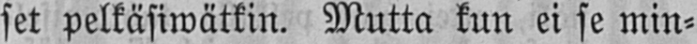set pelkäsiwätkin. Mutta kun ei se min-
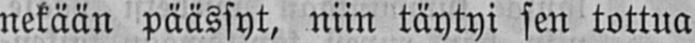nekään päässyt, niin täytyi sen tottua
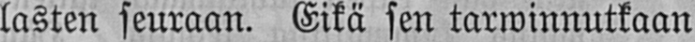lasten seuraan. Eikä sen tarwinnutkaan
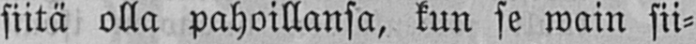siitä olla pahoillansa, kun se wain sii-
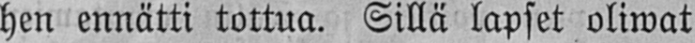hen ennätti tottua. Sillä lapset oliwat
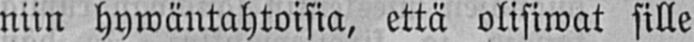niin hywäntahtoisia, että olisiwat sille
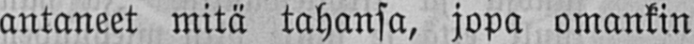antaneet mitä tahansa, jopa omankin
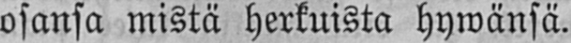osansa mistä herkuista hywänsä.
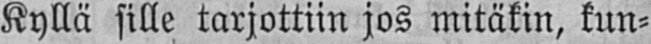Kyllä sille tarjottiin jos mitäkin, kun-
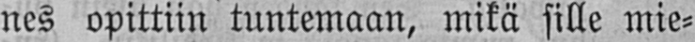nes opittiin tuntemaan, mikä sille mie-
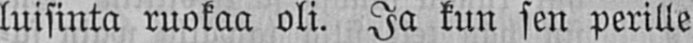luisinta ruokaa oli. Ja kun sen perille
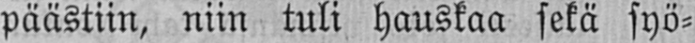päästiin, niin tuli hauskaa sekä syö-
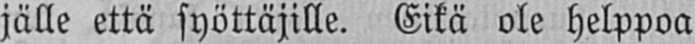jälle että syöttäjille. Eikä ole helppoa
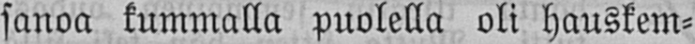sanoa kummalla puolella oli hauskem-
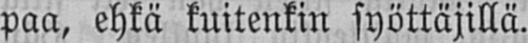paa, ehkä kuitenkin syöttäjillä.
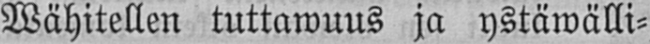Wähitellen tuttawuus ja ystäwälli-
